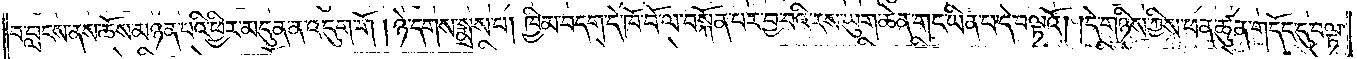བ་བླངས་ནས་ཆོས་མཉན་པའི་ཕྱིར་མདུན་ན་འདུག་གོ ། ཉེ་དགས་སྨྲས་པ། ཁྱིམ་བདག་དེ་ཁོ་བོ་ལ་བསྐོན་པར་བྱ་བའི་རས་ཡུག་ཆེན་གང་ཡིན་པ་དེ་བལྟའོ། །དེ་གཉིས་ཀྱིས་ཕན་ཚུན་གདོང་དུ་བལྟ་
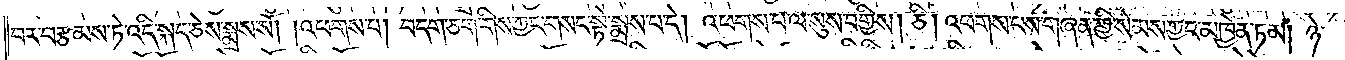བར་བརྩམས་ཏེ་འདི་སྐད་ཅེས་སྨྲས་སོ། །འཕགས་པ། བདག་ཅག་གིས་ཀྱང་གསང་སྟེ་སྨྲས་པ་དེ། འཕགས་པ་ལ་སུས་བགྱིས། ཅི། འཕགས་པས་གཞན་གྱི་སེམས་ཀྱང་མཁྱེན་ཏམ། ཉེ་
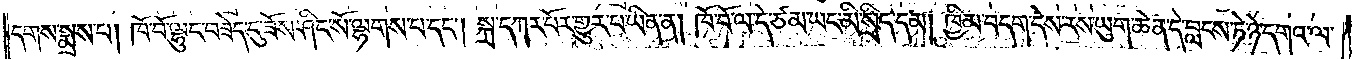དགས་སྨྲས་པ། ཁོ་བོ་ལྷུང་བཟེད་དུ་ཟོས་ཤིང་སོ་ལྷགས་པ་དང༌། སྐྲ་དཀར་པོར་གྱུར་པ་ཡིན་ན། ཁོ་བོ་ལ་དེ་ཙམ་ཡང་མི་སྲིད་དམ། ཁྱིམ་བདག་དེས་རས་ཡུག་ཆེན་དེ་བླངས་ཏེ་ཉེ་དགའ་ལ་
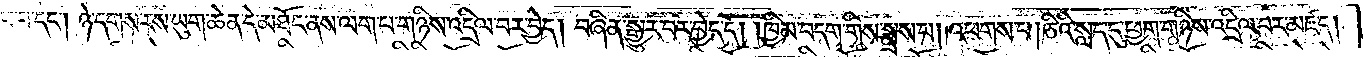ཕུལ་བ་དང༌། ཉེ་དགས་རས་ཡུག་ཆེན་དེ་མཐོང་ནས་ལག་པ་གཉིས་འདྲིལ་བར་བྱེད། བཞིན་སྒྱུར་བར་བྱེད་དོ། །ཁྱིམ་བདག་གིས་སྨྲས་པ། འཕགས་པ། ཅིའི་སླད་དུ་ཕྱག་གཉིས་འདྲིལ་བར་མཛད།
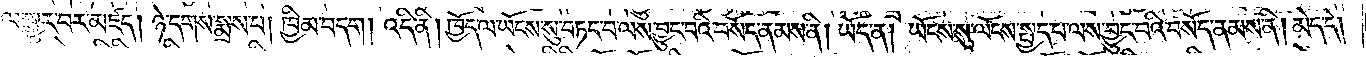ཞལ་སྒྱུར་བར་མཛད། ཉེ་དགས་སྨྲས་པ། ཁྱིམ་བདག། འདི་ནི། ཁྱོད་ལ་ཡོངས་སུ་བཏང་བ་ལས་བྱུང་བའི་བསོད་ནམས་ནི། ཡོད་ན། ཡོངས་སུ་ལོངས་སྤྱད་པ་ལས་བྱུང་བའི་བསོད་ནམས་ནི། མེད་དེ།
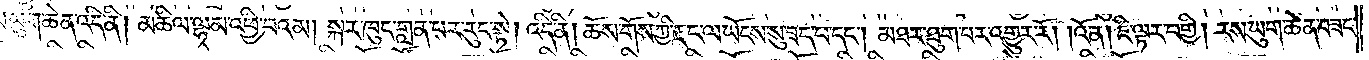རས་ཡུག་ཆེན་འདི་ནི། མཆིལ་ལྷམ་འཕྱི་བའམ། སྐར་ཁུང་གླན་པར་རུང་སྟེ། འདི་ནི། ཆོས་གོས་ཀྱི་རྡང་ལ་ཡོངས་སུ་ཟད་པ་དང༌། མཐར་ཐུག་པར་འགྱུར་རོ། །འོ་ན། ཇི་ལྟར་བགྱི། རས་ཡུག་ཆེན་བཟང་
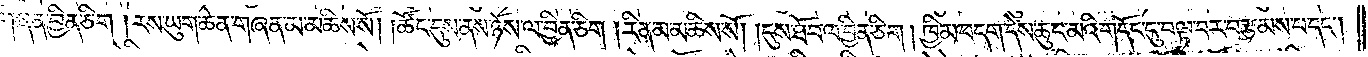གཞན་བྱིན་ཅིག །རས་ཡུག་ཆེན་གཞན་མ་མཆིས་སོ། །ཚོང་དུས་ནས་ཉོས་ལ་བྱིན་ཅིག །རིན་མ་མཆིས་སོ། །དུས་ཐོབ་ལ་བྱིན་ཅིག །ཁྱིམ་བདག་དེས་ཆུང་མའི་གདོང་དུ་བལྟ་བར་བརྩམས་པ་དང༌།
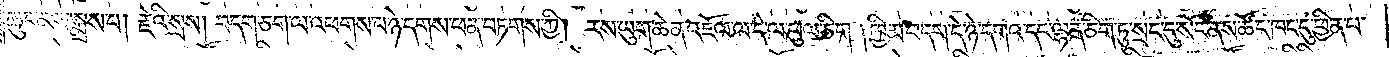ཆུང་མས་སྨྲས་པ། རྗེའི་སྲས། བདག་ཅག་ལ་འཕགས་པ་ཉེ་དགས་ཕན་བཏགས་ཀྱི། རས་ཡུག་ཆེན་འཇོལ་ལ་དེ་ལ་ཕུལ་ཅིག །ཁྱིམ་བདག་དེ་ཉེ་དགའ་དང་ལྷན་ཅིག་ཏུ་སྲང་དུ་སོང་ནས་ཚོང་ཁང་དུ་ཕྱིན་པ་
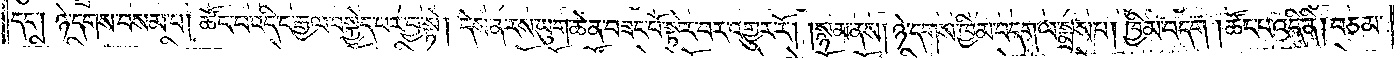དང༌། ཉེ་དགས་བསམ་པ། ཚོང་པ་འདི་ང་རྒྱལ་བསྐྱེད་པར་བྱ་སྟེ། དེས་ན་རས་ཡུག་ཆེན་བཟང་པོ་སྟེར་བར་འགྱུར་རོ། །སྙམ་ནས། ཉེ་དགས་ཁྱིམ་བདག་ལ་སྨྲས་པ། ཁྱིམ་བདག ། ཚོང་པ་འདི་ནི། བཅམ་
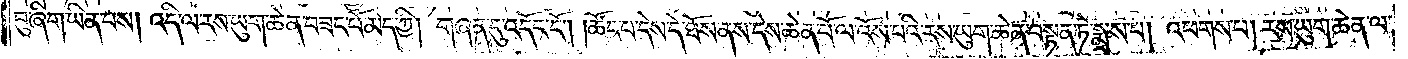བུ་ཞིག་ཡིན་པས། འདི་ལ་རས་ཡུག་ཆེན་བཟང་པོ་མེད་ཀྱི། གཞན་དུ་འདོང་ངོ༌། །ཚོང་པ་དེས་དེ་ཐོས་ནས་དེས་ཆེན་པོ་ལ་འོས་པའི་རས་ཡུག་ཆེན་བསྟན་ཏེ་སྨྲས་པ། འཕགས་པ། རས་ཡུག་ཆེན་ལ་
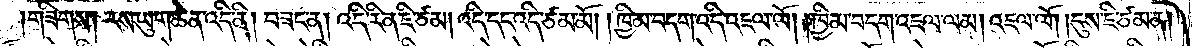གཟིགས། རས་ཡུག་ཆེན་འདི་ནི། བཟང་ན། འདི་རིན་ཇི་ཙམ། འདི་དང་འདི་ཙམ་མོ། །ཁྱིམ་བདག་འདི་འཇལ་ལོ། །ཁྱིམ་བདག་འཇལ་ལམ། འཇལ་ལོ། །དུས་ཇི་ཙམ་ན།
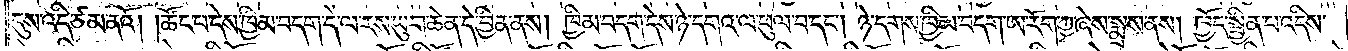དུས་འདི་ཙམ་ནའོ། །ཚོང་པ་དེས་ཁྱིམ་བདག་དེ་ལ་རས་ཡུག་ཆེན་དེ་བྱིན་ནས། ཁྱིམ་བདག་དེས་ཉེ་དགའ་ལ་ཕུལ་བ་དང༌། ཉེ་དགས་ཁྱིམ་བདག་ཨ་རོག་ཀྱ་ཞེས་སྨྲས་ནས། ཁྱོད་སྦྱིན་པ་འདིས་
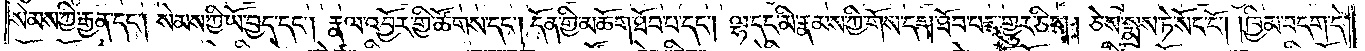སེམས་ཀྱི་རྒྱན་དང༌། སེམས་ཀྱི་ཡོ་བྱད་དང༌། རྣལ་འབྱོར་གྱི་ཚོགས་དང༌། དོན་གྱི་མཆོག་ཐོབ་པ་དང༌། ལྷ་དང་མི་རྣམས་ཀྱི་གོས་དག་ཐོབ་པར་གྱུར་ཅིག །ཅེས་སྨྲས་ཏེ་སོང་ངོ༌། །ཁྱིམ་བདག་དེ་
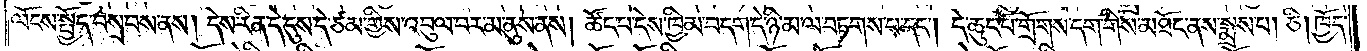ལོངས་སྤྱོད་བསྲབས་ནས། དེས་རིན་དེ་དུས་དེ་ཙམ་གྱིས་འབུལ་བར་མ་ནུས་ནས། ཚོང་པ་དེས་ཁྱིམ་བདག་དེ་ཉི་མ་ལ་བཏགས་པ་དང༌། དེ་ཆུང་པོ་གྲོགས་དག་གིས་མཐོང་ནས་སྨྲས་པ། ཅི། ཁྱོད་
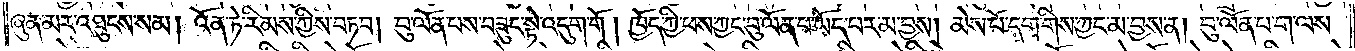ཞུན་མར་འཐུངས་སམ། འོན་ཏེ་རིམས་ཀྱིས་བཏབ། བུ་ལོན་པས་བཟུང་སྟེ་འདུག་གོ ། ཁྱོད་ཀྱི་ཕས་ཀྱང་བུ་ལོན་པ་ཡོད་པར་མ་བྱས། མེས་པོ་དག་གིས་ཀྱང་མ་བྱས་ན། བུ་ལོན་པ་ག་ལས་
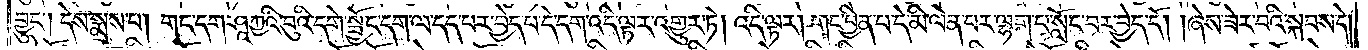བྱུང་། དེས་སྨྲས་པ། གང་དག་ཤཱཀྱའི་བུའི་དགེ་སྦྱོང་དག་ལ་དད་པར་བྱེད་པ་དེ་དག་འདི་ལྟར་འགྱུར་ཏེ། འདི་ལྟར། གང་བྱིན་པ་དེ་མི་ལེན་པར་ལྷག་པ་སློང་བར་བྱེད་དོ། །ཞེས་ཟེར་བའི་སྐབས་དེ་
